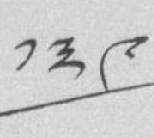༡༣༩
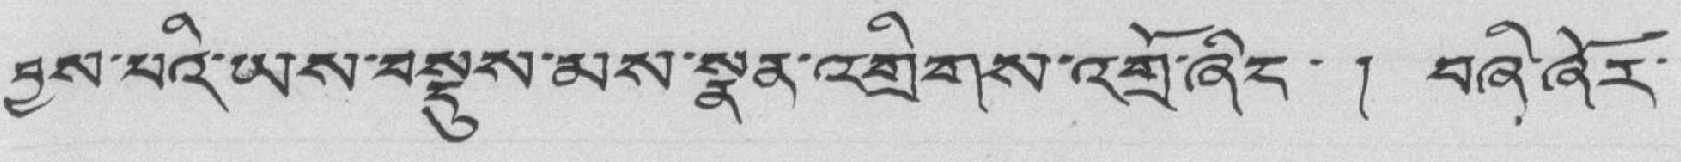བྱས་པའི་ཡས་བསྡུས་མས་སྣན་འགྲིགས་འགྲོ་ཞིང་ ། བཞི་ཞོར་
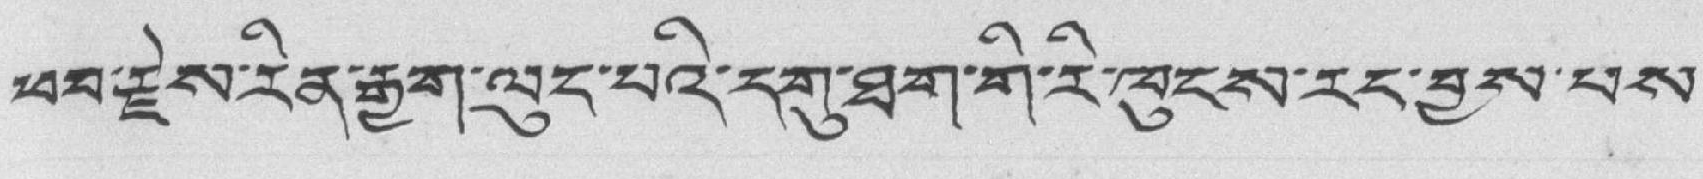ཕབ་རྗེས་རིན་རྒྱག་ལུང་པའི་དགུ་ཐག་གི་རི་ཁུངས་རང་བྱས་པས་
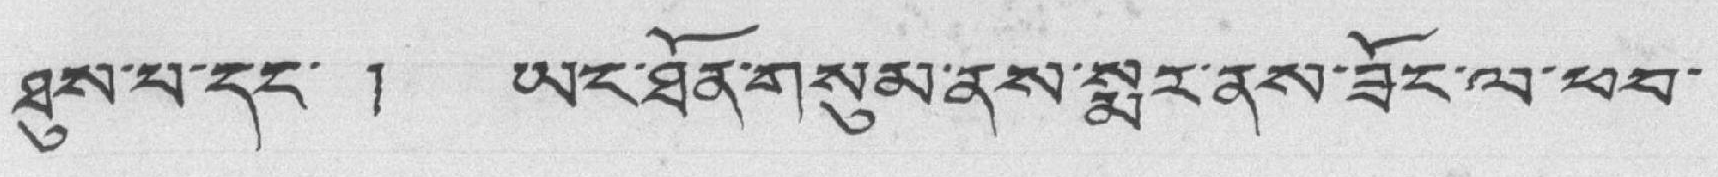ཐུས་པ་དང་ ། ཡང་ཐོན་གསུམ་ནས་སྨར་ནས་ཟོང་ལ་ཕབ་
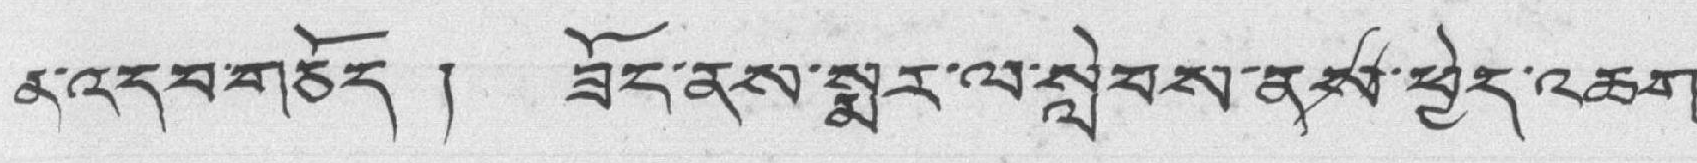ན་འདབ་གཅོད ། ཟོང་ནས་སྨར་ལ་སླེབས་ནས་ཕྱེད་འཆག་
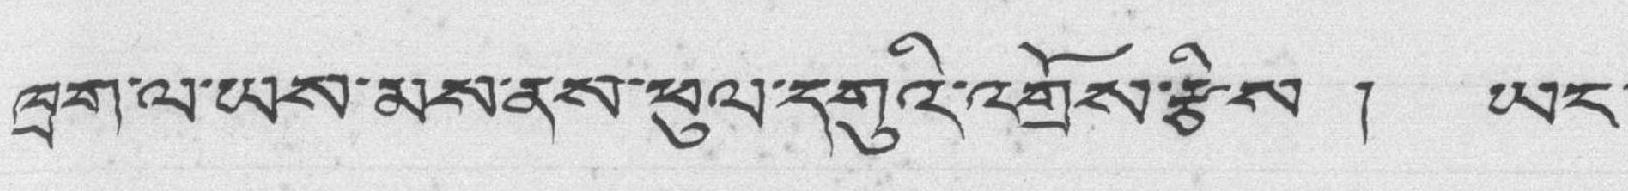ཁྲག་ལ་ཡས་མས་ནས་ཕུལ་དགུའི་འགྲོས་རྩིས ། ཡང་
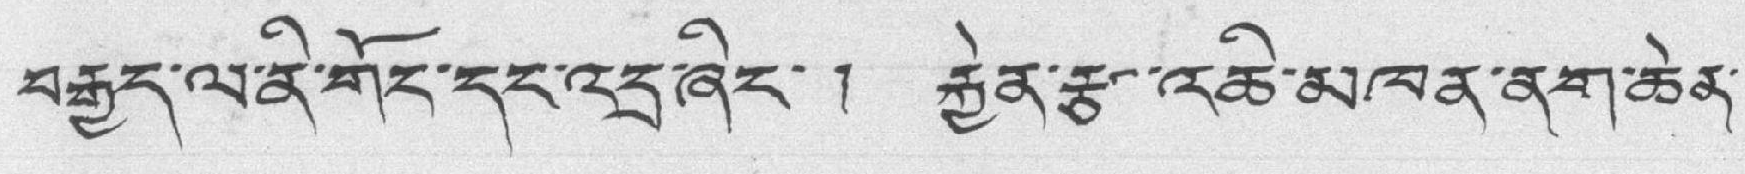བརྒྱད་ལ་ནི་གོང་དང་འདྲ་ཞིང་། རྐྱེན་རྩ་འཆི་མཁན་ནག་ཆེན་
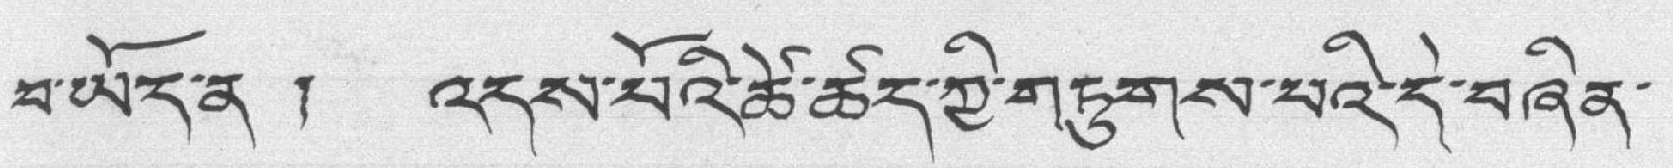བ་ཡོད་ན ། འདས་པོའི་ཚེ་ཚད་ཀྱི་གཏུགས་པའི་དེ་བཞིན་
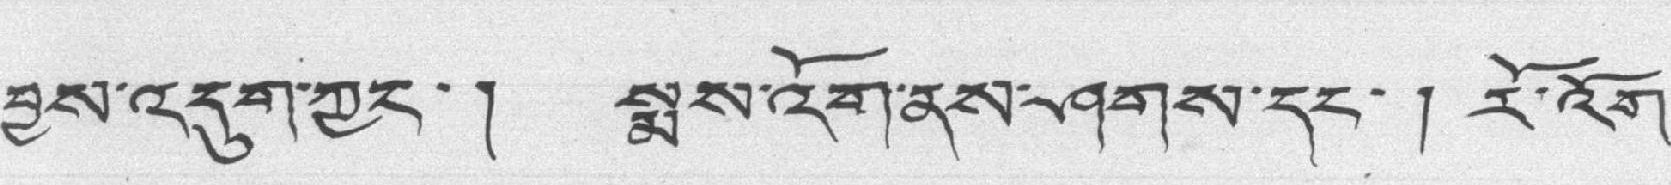བྱས་འདུག་ཀྱང་ ། སྨས་འོག་ནས་ཤགས་དང་། རོ་འོག་
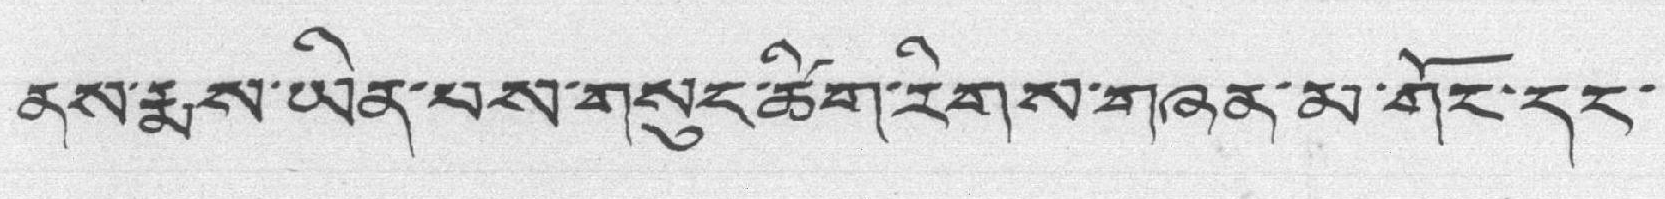ནས་རྨས་ཡིན་པས་གསུང་ཚིག་རིགས་གཞན་མ་གོང་དང་
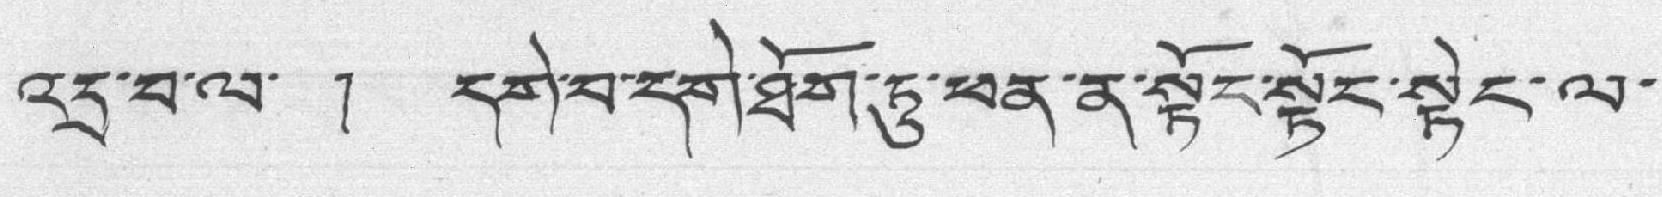འདྲ་བ་ལ་ ། དགེ་བ་དགེ་ཐོག་ཏུ་ཕན་ན་སྟོང་སྟོང་སྟེང་ལ་
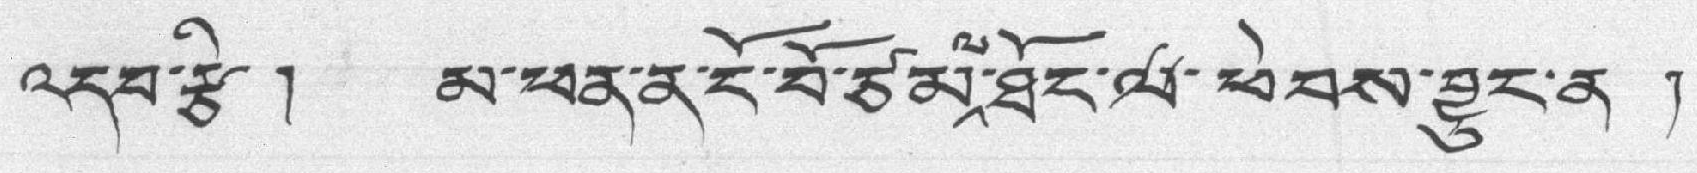འདབ་རྩི ། མ་ཕན་ན་ངོ་བོ་ཙམ་ལ་ཐོང་ལ་ཕེབས་བྱུང་ན །
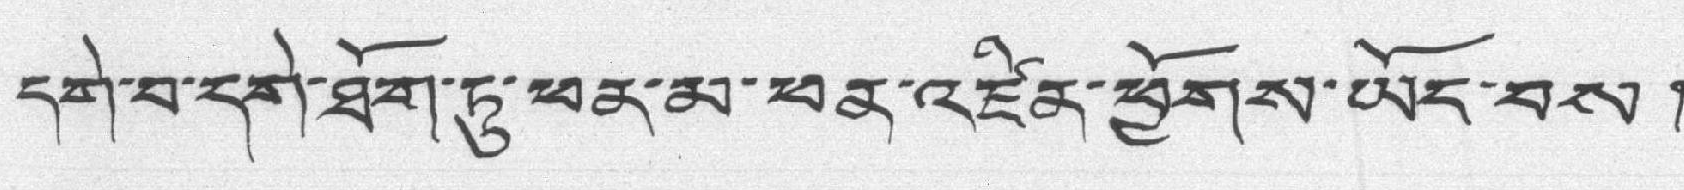དགེ་བ་དགེ་ཐོག་ཏུ་ཕན་མ་ཕན་འཛིན་ཕྱོགས་ཡོང་བས །
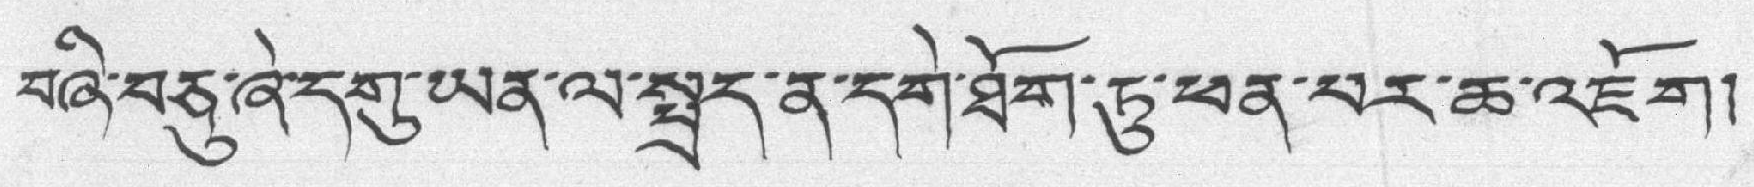བཞི་བཅུ་ཞེ་དགུ་ཡན་ལ་སྤྲད་ན་དགེ་ཐོག་ཏུ་ཕན་པར་ཆ་འཇོག།
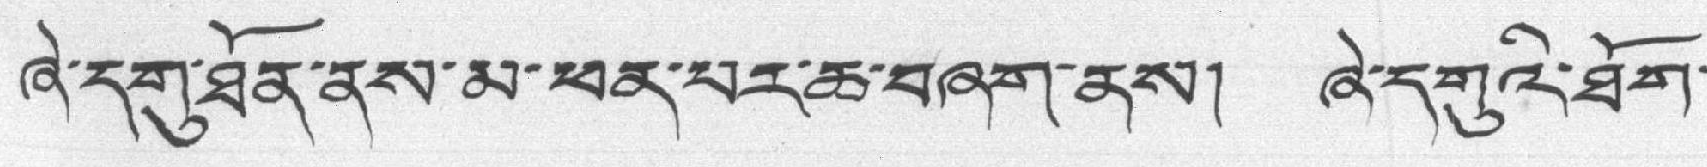ཞེ་དགུ་ཐོན་ནས་མ་ཕན་པར་ཆ་བཞག་ནས། ཞེ་དགུའི་ཐོག་
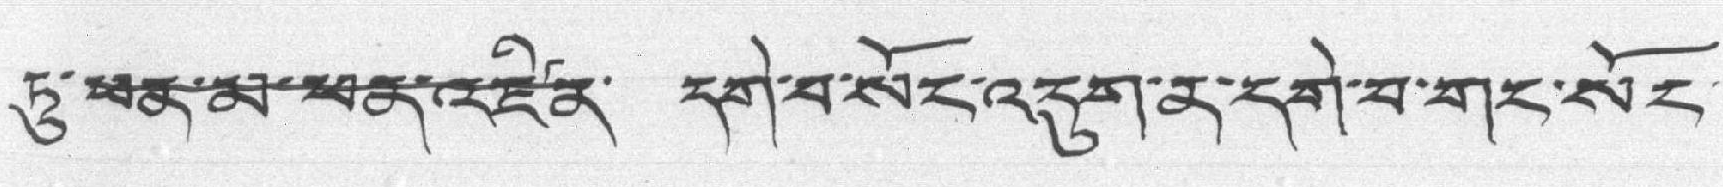ཏུ་ཕན་མི་ཕན་འཛིན་ དགེ་བ་སོང་འདུག་ན་དགེ་བ་གང་སོང་
